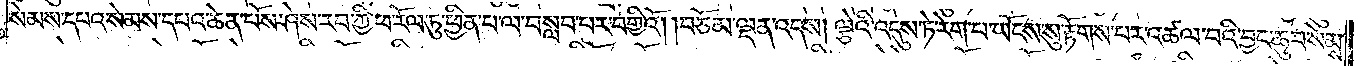སེམས་དཔའ་སེམས་དཔའ་ཆེན་པོས་ཤེས་རབ་ཀྱི་ཕ་རོལ་ཏུ་ཕྱིན་པ་ལ་བསླབ་པར་བགྱིའོ། །བཅོམ་ལྡན་འདས། ལྕེའི་འདུས་ཏེ་རེག་པ་ཡོངས་སུ་རྟོགས་པར་འཚལ་བའི་བྱང་ཆུབ་སེམས་
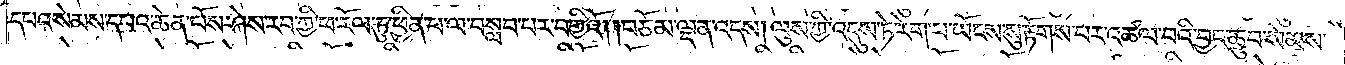དཔའ་སེམས་དཔའ་ཆེན་པོས་ཤེས་རབ་ཀྱི་ཕ་རོལ་ཏུ་ཕྱིན་པ་ལ་བསླབ་པར་བགྱིའོ། །བཅོམ་ལྡན་འདས། ལུས་ཀྱི་འདུས་ཏེ་རེག་པ་ཡོངས་སུ་རྟོགས་པར་འཚལ་བའི་བྱང་ཆུབ་སེམས་
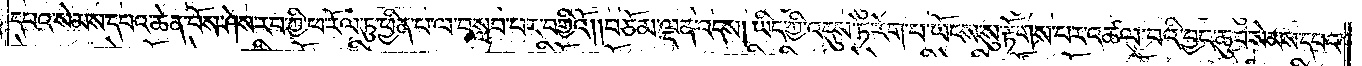དཔའ་སེམས་དཔའ་ཆེན་པོས་ཤེས་རབ་ཀྱི་ཕ་རོལ་ཏུ་ཕྱིན་པ་ལ་བསླབ་པར་བགྱིའོ། །བཅོམ་ལྡན་འདས། ཡིད་ཀྱི་འདུས་ཏེ་རེག་པ་ཡོངས་སུ་རྟོགས་པར་འཚལ་བའི་བྱང་ཆུབ་སེམས་དཔའ་
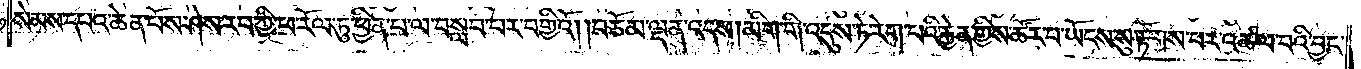སེམས་དཔའ་ཆེན་པོས་ཤེས་རབ་ཀྱི་ཕ་རོལ་ཏུ་ཕྱིན་པ་ལ་བསླབ་པར་བགྱིའོ། །བཅོམ་ལྡན་འདས། མིག་གི་འདུས་ཏེ་རེག་པའི་རྐྱེན་གྱིས་ཚོར་བ་ཡོངས་སུ་རྟོགས་པར་འཚལ་བའི་བྱང་
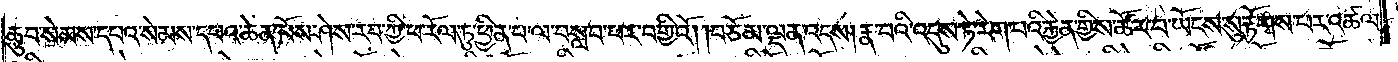ཆུབ་སེམས་དཔའ་སེམས་དཔའ་ཆེན་པོས་ཤེས་རབ་ཀྱི་ཕ་རོལ་ཏུ་ཕྱིན་པ་ལ་བསླབ་པར་བགྱིའོ། །བཅོམ་ལྡན་འདས། རྣ་བའི་འདུས་ཏེ་རེག་པའི་རྐྱེན་གྱིས་ཚོར་བ་ཡོངས་སུ་རྟོགས་པར་འཚལ་
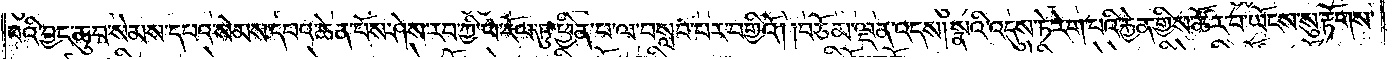བའི་བྱང་ཆུབ་སེམས་དཔའ་སེམས་དཔའ་ཆེན་པོས་ཤེས་རབ་ཀྱི་ཕ་རོལ་ཏུ་ཕྱིན་པ་ལ་བསླབ་པར་བགྱིའོ། །བཅོམ་ལྡན་འདས། སྣའི་འདུས་ཏེ་རེག་པའི་རྐྱེན་གྱིས་ཚོར་བ་ཡོངས་སུ་རྟོགས་
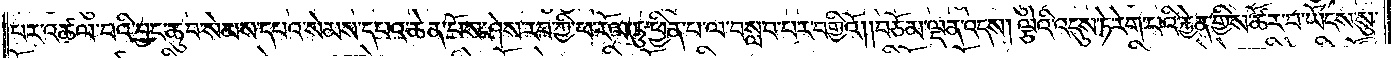པར་འཚལ་བའི་བྱང་ཆུབ་སེམས་དཔའ་སེམས་དཔའ་ཆེན་པོས་ཤེས་རབ་ཀྱི་ཕ་རོལ་ཏུ་ཕྱིན་པ་ལ་བསླབ་པར་བགྱིའོ། །བཅོམ་ལྡན་འདས། ལྕེའི་འདུས་ཏེ་རེག་པའི་རྐྱེན་གྱིས་ཚོར་བ་ཡོངས་སུ་
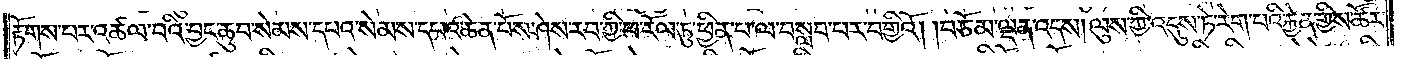རྟོགས་པར་འཚལ་བའི་བྱང་ཆུབ་སེམས་དཔའ་སེམས་དཔའ་ཆེན་པོས་ཤེས་རབ་ཀྱི་ཕ་རོལ་ཏུ་ཕྱིན་པ་ལ་བསླབ་པར་བགྱིའོ། །བཅོམ་ལྡན་འདས། ལུས་ཀྱི་འདུས་ཏེ་རེག་པའི་རྐྱེན་གྱིས་ཚོར་
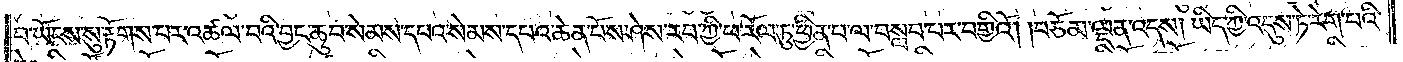བ་ཡོངས་སུ་རྟོགས་པར་འཚལ་བའི་བྱང་ཆུབ་སེམས་དཔའ་སེམས་དཔའ་ཆེན་པོས་ཤེས་རབ་ཀྱི་ཕ་རོལ་ཏུ་ཕྱིན་པ་ལ་བསླབ་པར་བགྱིའོ། །བཅོམ་ལྡན་འདས། ཡིད་ཀྱི་འདུས་ཏེ་རེག་པའི་
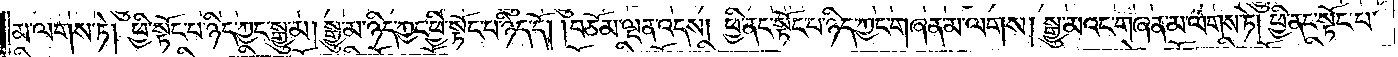མ་ལགས་ཏེ། ཕྱི་སྟོང་པ་ཉིད་ཀྱང་སྒྱུ་མ། སྒྱུ་མ་ཉིད་ཀྱང་ཕྱི་སྟོང་པ་ཉིད་དོ། །བཅོམ་ལྡན་འདས། ཕྱི་ནང་སྟོང་པ་ཉིད་ཀྱང་གཞན་མ་ལགས། སྒྱུ་མའང་གཞན་མ་ལགས་ཏེ། ཕྱི་ནང་སྟོང་པ་
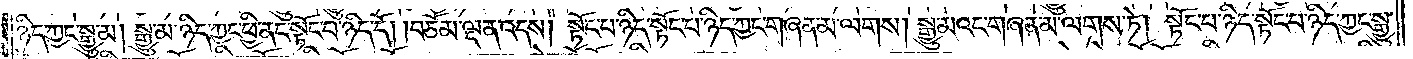ཉིད་ཀྱང་སྒྱུ་མ། སྒྱུ་མ་ཉིད་ཀྱང་ཕྱི་ནང་སྟོང་པ་ཉིད་དོ། །བཅོམ་ལྡན་འདས། སྟོང་པ་ཉིད་སྟོང་པ་ཉིད་ཀྱང་གཞན་མ་ལགས། སྒྱུ་མའང་གཞན་མ་ལགས་ཏེ། སྟོང་པ་ཉིད་སྟོང་པ་ཉིད་ཀྱང་སྒྱུ་
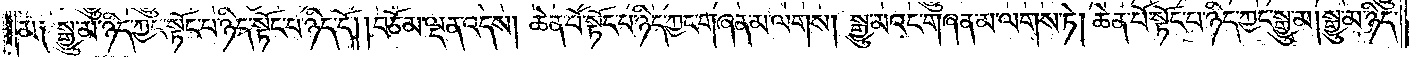མ༑ སྒྱུ་མ་ཉིད་ཀྱང་སྟོང་པ་ཉིད་སྟོང་པ་ཉིད་དོ། །བཅོམ་ལྡན་འདས། ཆེན་པོ་སྟོང་པ་ཉིད་ཀྱང་གཞན་མ་ལགས། སྒྱུ་མའང་གཞན་མ་ལགས་ཏེ། ཆེན་པོ་སྟོང་པ་ཉིད་ཀྱང་སྒྱུ་མ། སྒྱུ་མ་ཉིད་
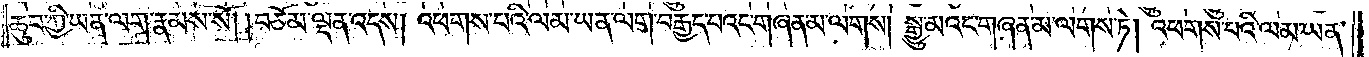ཆུབ་ཀྱི་ཡན་ལག་རྣམས་སོ། །བཅོམ་ལྡན་འདས། འཕགས་པའི་ལམ་ཡན་ལག་བརྒྱད་པའང་གཞན་མ་ལགས། སྒྱུ་མའང་གཞན་མ་ལགས་ཏེ། འཕགས་པའི་ལམ་ཡན་
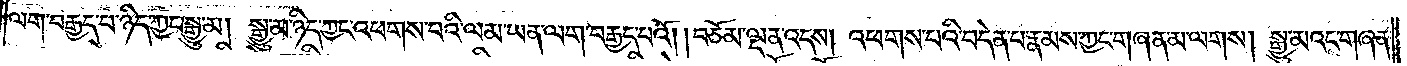ལག་བརྒྱད་པ་ཉིད་ཀྱང་སྒྱུ་མ། སྒྱུ་མ་ཉིད་ཀྱང་འཕགས་པའི་ལམ་ཡན་ལག་བརྒྱད་པའོ། །བཅོམ་ལྡན་འདས། འཕགས་པའི་བདེན་པ་རྣམས་ཀྱང་གཞན་མ་ལགས། སྒྱུ་མའང་གཞན་
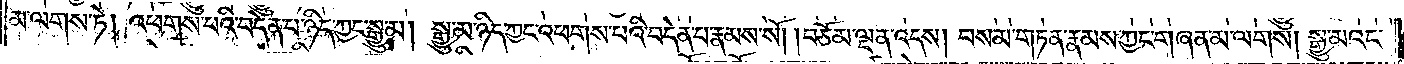མ་ལགས་ཏེ། འཕགས་པའི་བདེན་པ་ཉིད་ཀྱང་སྒྱུ་མ། སྒྱུ་མ་ཉིད་ཀྱང་འཕགས་པའི་བདེན་པ་རྣམས་སོ། །བཅོམ་ལྡན་འདས། བསམ་གཏན་རྣམས་ཀྱང་གཞན་མ་ལགས། སྒྱུ་མའང་
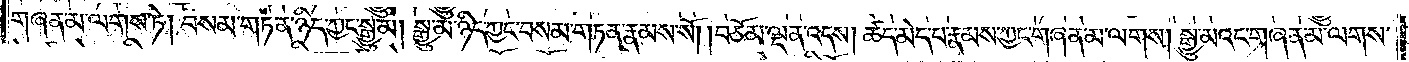གཞན་མ་ལགས་ཏེ། བསམ་གཏན་ཉིད་ཀྱང་སྒྱུ་མ། སྒྱུ་མ་ཉིད་ཀྱང་བསམ་གཏན་རྣམས་སོ། །བཅོམ་ལྡན་འདས། ཚད་མེད་པ་རྣམས་ཀྱང་གཞན་མ་ལགས། སྒྱུ་མའང་གཞན་མ་ལགས་
